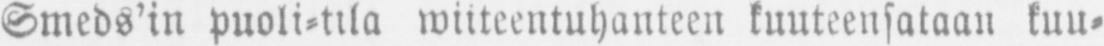Smeds'in puoli-tila wiiteentuhanteen kuuteensataan kuu-
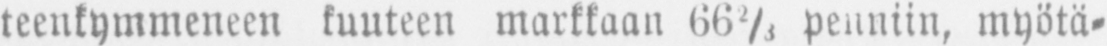teenkymmeneen kuuteen markkaan 66⅔ penniin, myötä-
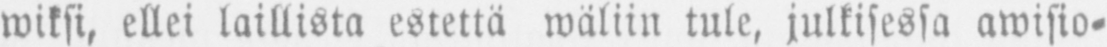wiksi, ellei laillista estettä wäliin tule, julkisessa awisio-
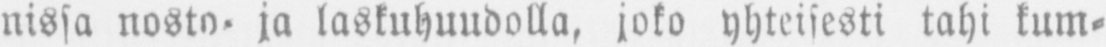nissa nosto- ja laskuhuudolla, joko yhteisesti tahi kum-
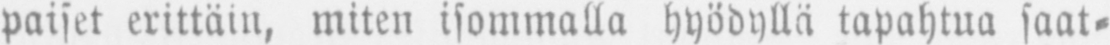paiset erittäin, miten isommalla hyödyllä tapahtua saat-
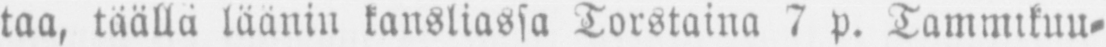taa, täällä läänin kansliassa Torstaina 7 p. Tammikuu-
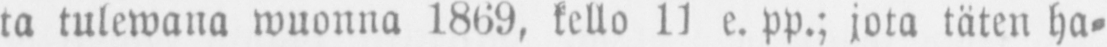ta tulewana wuonna 1869, kello 11 e. pp.; jota täten ha-
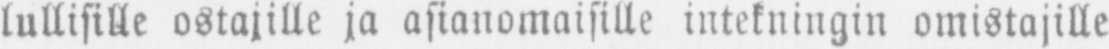lullisille ostajille ja asianomaisille intekningin omistajille
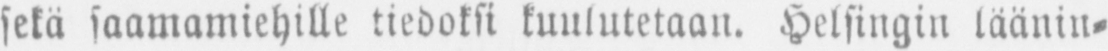sekä saamamiehille tiedoksi kuulutetaan. Helsingin läänin-
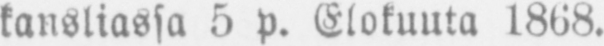kansliassa 5 p. Elokuuta 1868.
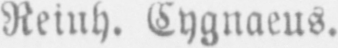Reiuh. Cygnaeus.
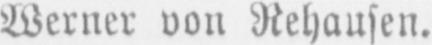Werner von Rehausen.
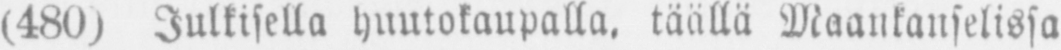(480) Julkisella huutokaupalla, täällä Maankanselissa
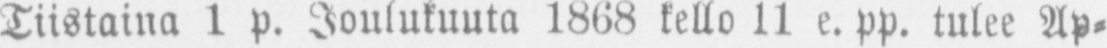Tiistaina 1 p. Joulukuuta 1868 kello 11 e. pp. tulee Ap-
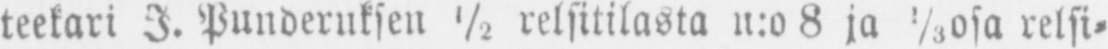teekari I. Punderuksen ½ relsitilasta n:o 8 ja ⅓ osa relsi-
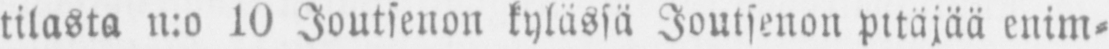tilasta n:o 10 Joutsenon kylässä Joutsenon pitäjää enim-
